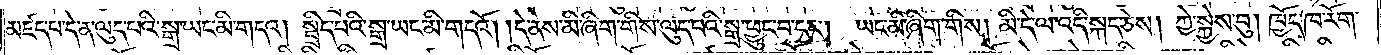མཛད་པ་དེ་ན་ལུད་པའི་སྒྲ་ཡང་མི་གདའ། སྦྲིད་པའི་སྒྲ་ཡང་མི་གདའོ། །དེ་ནས་མི་ཞིག་གིས་ལུད་པའི་སྒྲ་ཕྱུང་བ་དང༌། ཡང་མི་ཞིག་གིས། མི་དེ་ལ་འདི་སྐད་ཅེས། ཀྱེ་སྐྱེས་བུ། ཁྱོད་ཁ་རོག་
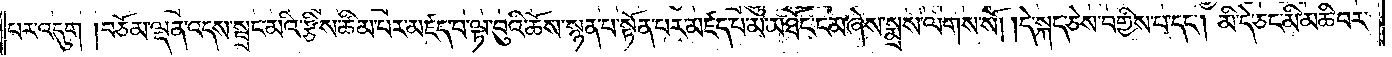པར་འདུག །བཅོམ་ལྡན་འདས་སྦྲང་མའི་རྩིས་ཚིམ་པར་མཛད་པ་ལྟ་བུའི་ཆོས་སྙན་པ་སྟོན་པར་མཛད་པ་མ་མཐོང་ངམ་ཞེས་སྨྲས་ལགས་སོ། །དེ་སྐད་ཅེས་བགྱིས་པ་དང༌། མི་དེ་ཅང་མི་མཆི་བར་
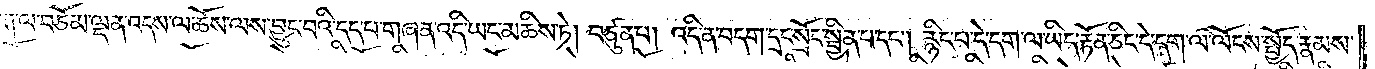བདག་ལ་བཅོམ་ལྡན་འདས་ལ་ཆོས་ལས་བྱུང་བའི་དད་པ་གཞན་འདི་ཡང་མཆིས་ཏེ། བཙུན་པ། འདི་ན་བདག་དྲང་སྲོང་སྦྱིན་པ་དང༌། རྙིང་པ་དེ་དག་ལ་ཡིད་རྟོན་ཅིང་དེ་དག་ལ་ལོངས་སྤྱོད་རྣམས་
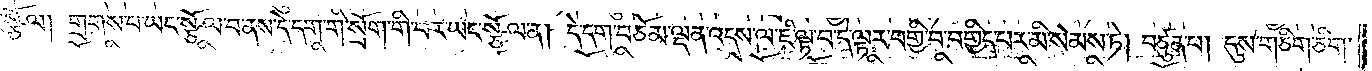ཀྱང་སྩོལ། གྲགས་པ་ཡང་སྩོལ་བ་ནས་དེ་དག་གི་སྲོག་གི་བར་ཡང་སྩོལ་ན། དེ་དག་བཅོམ་ལྡན་འདས་ལ་ཇི་ལྟ་བ་དེ་ལྟར་བགྱི་བ་བགྱིད་པར་མི་སེམས་ཏེ། བཙུན་པ། དུས་གཅིག་ཅིག་
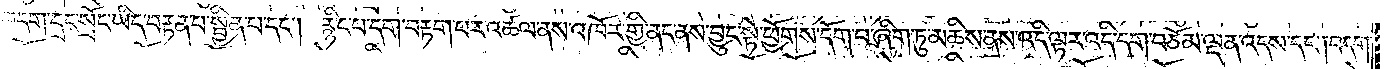ན་བདག་དྲང་སྲོང་ཡིད་བརྟན་པ་སྦྱིན་པ་དང༌། རྙིང་པ་དག་བརྟག་པར་འཚལ་ནས་འཁོར་གྱི་ནང་ནས་བྱུང་སྟེ་ཕྱོགས་དོག་པ་ཞིག་ཏུ་མཆིས་ནས་འདི་ལྟར་འདི་དག་བཅོམ་ལྡན་འདས་དང༌། བདག་
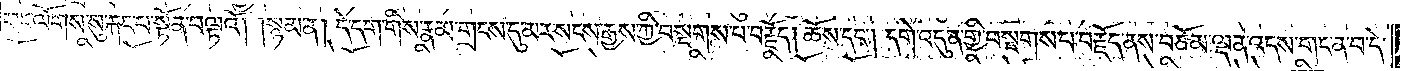གང་ལོགས་སུ་རྐང་པ་སྟོན་བལྟའོ། །སྙམ་ན། དེ་དག་གིས་རྣམ་གྲངས་དུ་མར་སངས་རྒྱས་ཀྱི་བསྔགས་པ་བརྗོད། ཆོས་དང༌། དགེ་འདུན་གྱི་བསྔགས་པ་བརྗོད་ནས་བཅོམ་ལྡན་འདས་གང་ན་བ་དེ་
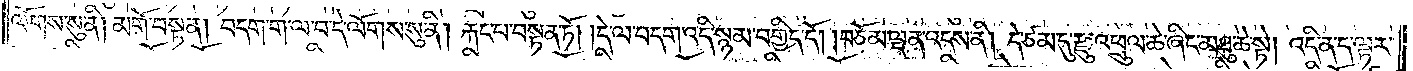ལོགས་སུ་ནི། མགོ་བསྟན། བདག་ག་ལ་བ་དེ་ལོགས་སུ་ནི། རྐང་པ་བསྟན་ཏོ། །དེ་ལ་བདག་འདི་སྙམ་བགྱིད་དོ། །བཅོམ་ལྡན་འདས་ནི། དེ་ཙམ་དུ་རྫུ་འཕྲུལ་ཆེ་ཞིང་མཐུ་ཆེ་སྟེ། འདི་ན་ད་ལྟར་
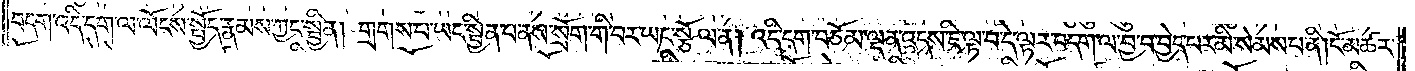བདག་འདི་དག་ལ་ལོངས་སྤྱོད་རྣམས་ཀྱང་སྦྱིན། གྲགས་པ་ཡང་སྦྱིན་པ་ནས་སྲོག་གི་བར་ཡང་སྩོལ་ན། འདི་དག་བཅོམ་ལྡན་འདས་ཇི་ལྟ་བ་དེ་ལྟར་བདག་ལ་བྱ་བ་བྱེད་པར་མི་སེམས་པ་ནི། ངོ་མཚར་
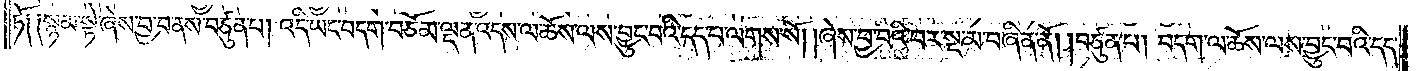ཏོ༑ ༑སྙམ་སྟེ་ཞེས་བྱ་བ་ནས་བཙུན་པ། འདི་ཡང་བདག་བཅོམ་ལྡན་འདས་ལ་ཆོས་ལས་བྱུང་བའི་དད་པ་ལགས་སོ། །ཞེས་བྱ་བའི་བར་སྔ་མ་བཞིན་ནོ། །བཙུན་པ། བདག་ལ་ཆོས་ལས་བྱུང་བའི་དད་
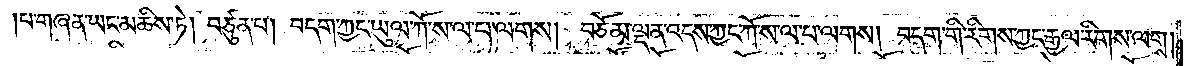པ་གཞན་ཡང་མཆིས་ཏེ། བཙུན་པ། བདག་ཀྱང་ཡུལ་ཀོ་ས་ལ་པ་ལགས། བཅོམ་ལྡན་འདས་ཀྱང་ཀོ་ས་ལ་པ་ལགས། བདག་གི་རིགས་ཀྱང་རྒྱལ་རིགས་ལགས་
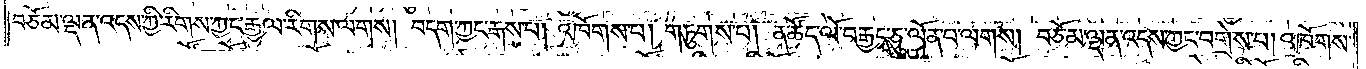བཅོམ་ལྡན་འདས་ཀྱི་རིགས་ཀྱང་རྒྱལ་རིགས་ལགས། བདག་ཀྱང་རྒས་པ། འཁོགས་པ། གཏུགས་པ། ན་ཚོད་ལོ་བརྒྱད་ཅུ་ལོན་པ་ལགས། བཅོམ་ལྡན་འདས་ཀྱང་བགྲེས་པ། འཁོགས་
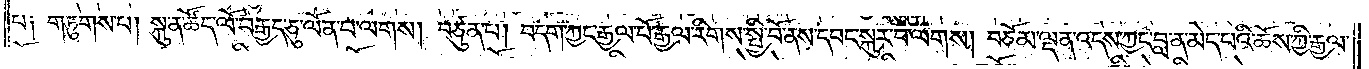པ༑ གཏུགས་པ། སྐུ་ན་ཚོད་ལོ་བརྒྱད་ཅུ་ལོན་པ་ལགས། བཙུན་པ། བདག་ཀྱང་རྒྱལ་པོ་རྒྱལ་རིགས་སྤྱི་བོ་ནས་དབང་སྐུར་བ་ལགས། བཅོམ་ལྡན་འདས་ཀྱང་བླ་ན་མེད་པའི་ཆོས་ཀྱི་རྒྱལ་
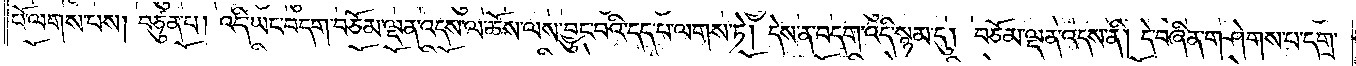པོ་ལགས་པས། བཙུན་པ། འདི་ཡང་བདག་བཅོམ་ལྡན་འདས་ལ་ཆོས་ལས་བྱུང་བའི་དད་པ་ལགས་ཏེ། དེས་ན་བདག་འདི་སྙམ་དུ། བཅོམ་ལྡན་འདས་ནི། དེ་བཞིན་གཤེགས་པ་དགྲ་
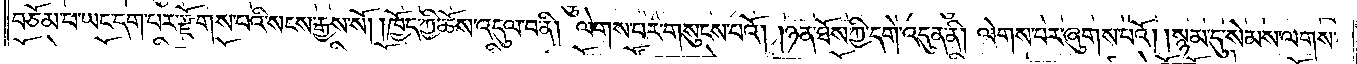བཅོམ་པ་ཡང་དག་པར་རྫོགས་པའི་སངས་རྒྱས་སོ། །ཁྱོད་ཀྱི་ཆོས་འདུལ་བ་ནི། ལེགས་པར་གསུངས་པའོ། །ཉན་ཐོས་ཀྱི་དགེ་འདུན་ནི། ལེགས་པར་ཞུགས་པའོ། །སྙམ་དུ་སེམས་ལགས་
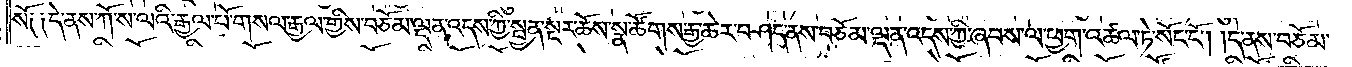སོ༑ ༑དེ་ནས་ཀོ་ས་ལའི་རྒྱལ་པོ་གསལ་རྒྱལ་གྱིས་བཅོམ་ལྡན་འདས་ཀྱི་སྤྱན་སྔར་ཆོས་སྣ་ཚོགས་རྒྱ་ཆེར་བཤད་ནས་བཅོམ་ལྡན་འདས་ཀྱི་ཞབས་ལ་ཕྱག་འཚལ་ཏེ་སོང་ངོ༌། །ད་ནས་བཅོམ་
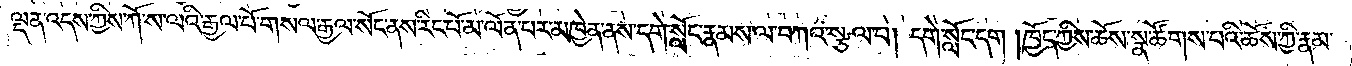ལྡན་འདས་ཀྱིས་ཀོ་ས་ལའི་རྒྱལ་པོ་གསལ་རྒྱལ་སོང་ནས་རིང་པོ་མ་ལོན་པར་མཁྱེན་ནས་དགེ་སློང་རྣམས་ལ་བཀའ་སྩལ་པ། དགེ་སློང་དག །ཁྱོད་ཀྱིས་ཆོས་སྣ་ཚོགས་པའི་ཆོས་ཀྱི་རྣམ་
